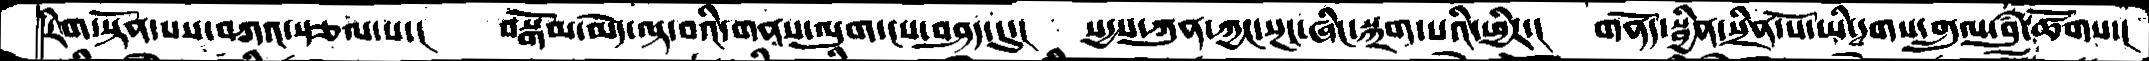རིག་སྟོན་པས་བཀའ་སྩལ་པ་།   བསྒོམ་མེད་ལྟ་བའི་གནས་ལུག་ངས་བཤད་དུ་།   སདྱས་ཀུན་ཀྱང་སྔང་ཞིང་སྐྲག་པའི་ཕྱིར་།   གནོད་སྦྱིན་སྲིན་པོ་ཡི་དྭགས་གྲུལ་བུཾ་ཚོགས་།
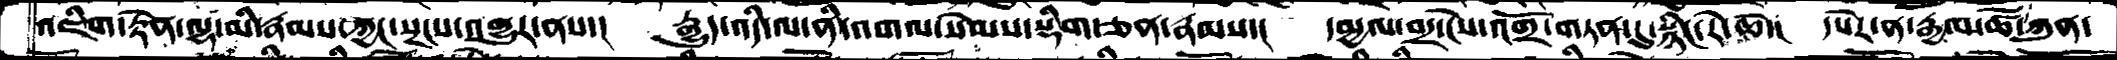འཇིག་རྟེན་ལྷ་མི་རྣམས་ཀྱང་སྔངས་འགྱུར་ནས་།   རྒྱུད་འདི་ལ་ནི་འགལ་སེམས་སྡིག་ཅན་རྣམས་།   དམྱལ་བར་ངེས་འགྲོ་གཏན་དུ་སྙིང་རེ་ཆེ་།   དཔེར་ན་རྒྱལ་ཚོ་ཀུན་
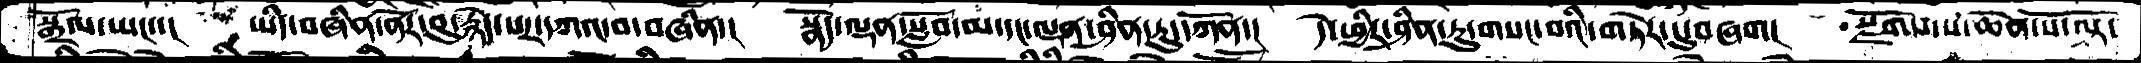སྒྲོལ་ཡང་་།  ཡིད་བཞིན་ནོར་བུ་རྙེད་པར་དཀའ་བ་བཞིན་།    སྣོད་ལྡན་སློབ་མ་དང་ལྡན་ཤིན་ཏུ་དཀོན་།   དེ་ཕྱིར་ཤིན་ཏུ་གསང་བའི་གཏེར་དུ་བཞག།   སྫོགས་པ་ཆེན་པོ་ལྟ་
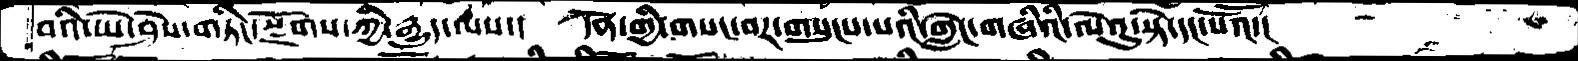བའི་ཡེ་ཤེས་གཏིང་སྫོགས་ཀྱི་རྒྱུད་ལས་།  དོན་གྱི་གསང་བར་གསུངས་པའི་གླེང་གཞིའི་ལེའུ་སྟེ་དང་པོའོ་།
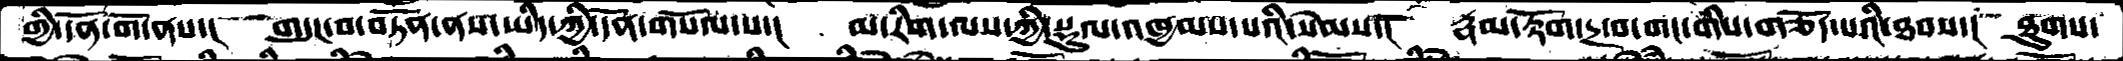གྱི་དོན་གོ་ནས་།  གདུང་བ་བཏོན་ནས་ཡིད་ཀྱི་དོན་གསོལ་པ་།  མ་རིག་ལས་ཀྱི་སྡུལ་འཁྱམས་པའི་སེམས་།  རྣམ་རྟོག་དྲ་བ་གང་གིས་གཅོད་པའི་ཐབས་།  ཐུགས་
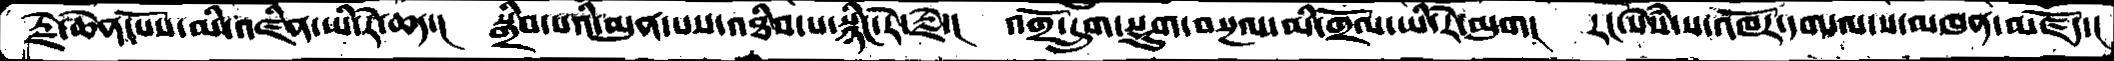རྗེ་ཆེན་པོས་མི་འཛིན་ཡི་རེ་ཆད་།  སྒྲིབ་པའི་མུན་པས་འཐིབ་པ་སྙིང་རེ་རྗེ་།  འགྲོ་དྲུག་སྡུག་བསྔལ་མི་གྲོལ་ཡི་རེ་མུག།  རང་སེསྃ་ས་འཁོར་དག་ལ་ས་མཁན་མཛོད་།
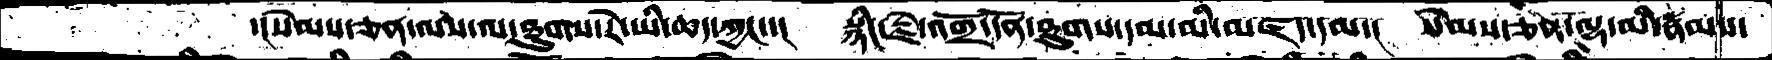་།སེམས་ཅན་ལས་ལ་ཐུགས་རེ་ཡི་ཆད་ཀྱང་།  སྙིང་རྗེ་འགྲོ་དོན་ཐུགས་དམ་མི་མཛད་དམ་།  སེམས་ཅན་ལྷ་མི་རྣམས་
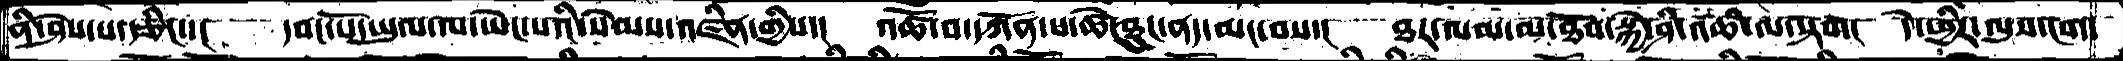ནི་ཤེས་པ་རྩིང་་།  དབང་པོ་ཡུལ་ལ་ཡེང་པའི་སེམས་འཛིན་གྱིས་།  འཚོ་བ་དཀོན་པ་ཚེ་ཐུང་ནད་མང་བས་།  ཐར་ལམ་མ་ཐོབ་སྐྱེ་ཤི་འཆི་ལ་སྟག།  དེ་ཕྱིར་ལུས་ངག་
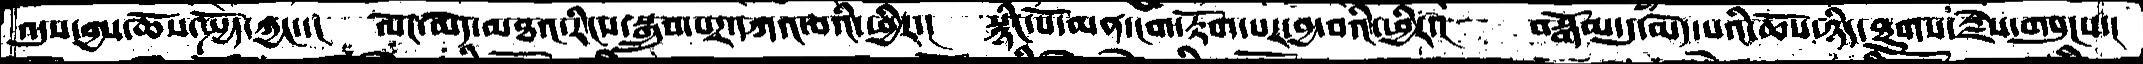འདུས་བྱས་ཆོས་སྤྱོད་ཀྱང་་།   ལོང་མེད་མཐའ་རིངས་སྒྲུབ་པར་དཀའ་བའི་ཕྱིར་།   སྙིང་པོ་མན་ངག་རྟོག་པར་བྱ་བའི་ཕྱིར་།  བསྒོམ་དུ་མེད་པའི་ཆོས་ཉིད་ཐུགས་རྗེས་གསུངས་།
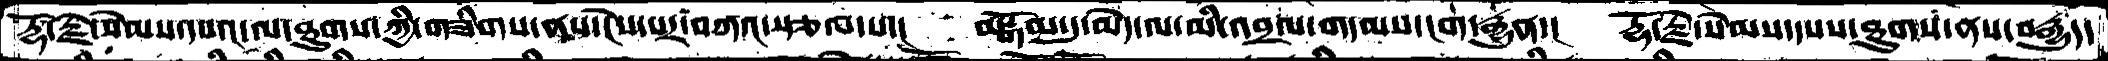རྡོ་རྗེ་སེམས་དཔའ་ལ་ཐུགས་ཀྱི་གཟིགས་ནས་ངེས་པར་བཀའ་སྩལ་པ་།   བསྒོམ་དུ་མེད་ལ་མི་འབྲལ་གདམས་ངག་རྒྱུན་།   རྡོ་རྗེ་སེམས་དཔས་ཐུགས་ནས་བརྒྱུད་
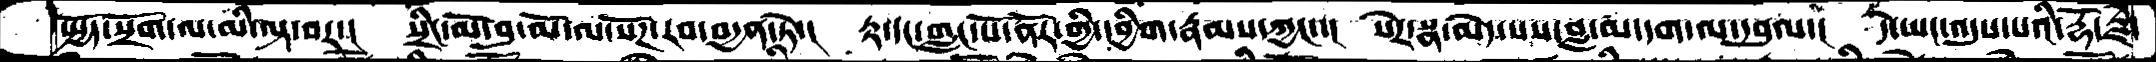སྤྱོད་སྲོག་ལ་མི་ལྟ་བར་།  སྲིང་མོ་བུ་མོ་ལ་སོཌ་རབ་བདྱན་ཏེ་།  རྟ་དང་གླང་པོ་ནོར་གྱི་དབྱིག་རྣམས་ཀྱང་་།  སེར་སྣ་མེད་པས་བླ་མ་དག་ལ་དབུལ་།  དེ་ཡང་འདུས་པའི་རྡོ་རྗེ་
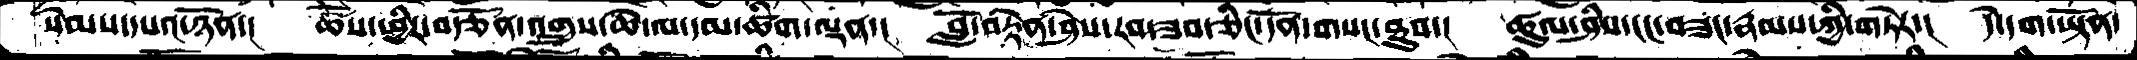སེམས་དཔའ་ཉོན་།  ཆོས་ཕྱིར་བརྩོན་འགྲུས་ཆེ་ལ་དམ་ཚིག་ལྡན་།  བློ་བརྟེན་ཤེས་རབ་ཟབ་ཅིང་དོན་གསང་ཐུབ་།  ཚུལ་ཤིས་ངང་བཟང་རྣམས་ཀྱི་གཏེར་།  དེ་དག་ཡྟོན་
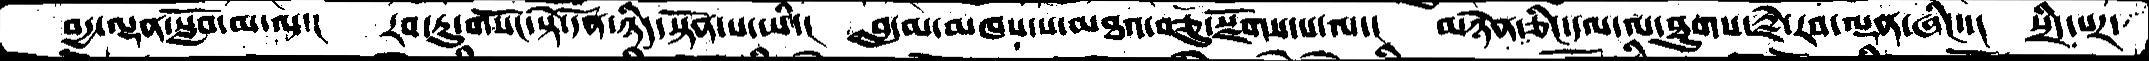བདྱ་ལྷན་སློབ་མ་ལ་།  རབ་ཏུ་གསོང་སྟེ་དོན་ཉིད་སྟོན་པ་ཡི་།  བླ་མ་མཁས་པ་མཐའ་བཅུ་སྫོགས་པ་ལ་།  མཉེན་ཅིང་དལ་ལ་ཐུགས་རྗེ་རབ་ལྡན་ཞིང་།  སྲིད་པར་
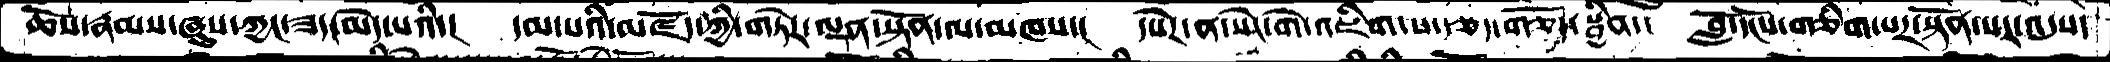ཆོས་རྣམས་ཞུས་ཀྱང་ཟད་མེད་པའི་།  དམ་པའི་མཛོད་ཀྱི་གཏེར་ལྡན་སྟོན་ལ་མཁས་།  དཔེར་ན་སེང་གེ་འཇིག་པ་རྩད་གཅོད་སྦྱིན་།  བློ་དངོས་གཅིག་པར་སྟོན་པར་འདུས་
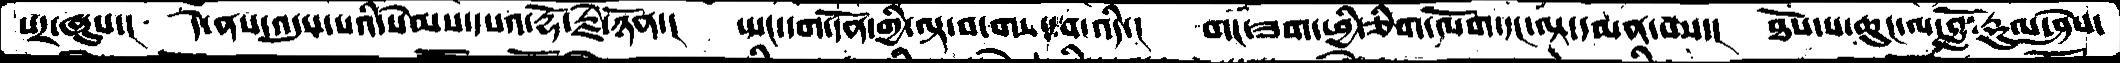པར་ཞུས་།  དེ་ནས་འདུས་པའི་སེམས་དཔའ་རྡོ་རྗེ་ཉོན་།  ཡང་དག་དོན་གྱི་ལྟ་བ་གསར་བ་འདི་།  གང་ཟག་ཕྱི་ཅིག་ལོག་དང་ལྟ་དམན་པས་།  ཐོས་པ་ཆུང་ལ་བློ་རྟུལ་ཤེས་
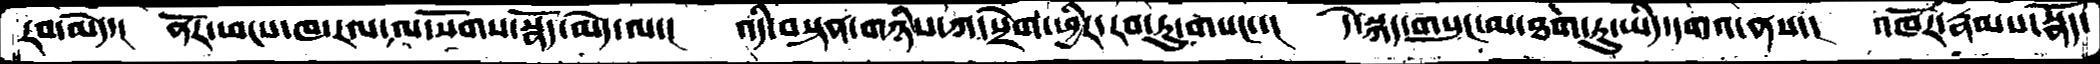རབ་མེད་།  ནོར་ཕངས་ཁ་རལ་ལ་སོགས་སྣོད་མེད་ལ་།  འདི་བསྟན་གཉིས་ཀ་སྲེག་ཕྱིར་རབ་ཏུ་གསང་་།  དེ་སྐད་གསུང་མ་ཐག་ཏུ་ཡིད་དགའ་ནས་།  འཁོར་རྣམས་སྣོད་
